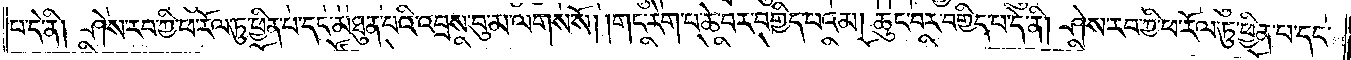པ་དེ་ནི། ཤེས་རབ་ཀྱི་ཕ་རོལ་ཏུ་ཕྱིན་པ་དང་མཐུན་པའི་འབྲས་བུ་མ་ལགས་སོ། །གང་རེག་པ་ཆེ་བར་བགྱིད་པའམ། ཆུང་བར་བགྱིད་པ་དེ་ནི། ཤེས་རབ་ཀྱི་ཕ་རོལ་ཏུ་ཕྱིན་པ་དང་
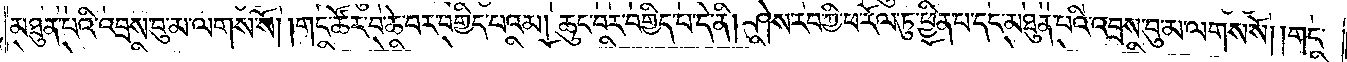མཐུན་པའི་འབྲས་བུ་མ་ལགས་སོ། །གང་ཚོར་བ་ཆེ་བར་བགྱིད་པའམ། ཆུང་བར་བགྱིད་པ་དེ་ནི། ཤེས་རབ་ཀྱི་ཕ་རོལ་ཏུ་ཕྱིན་པ་དང་མཐུན་པའི་འབྲས་བུ་མ་ལགས་སོ། །གང་
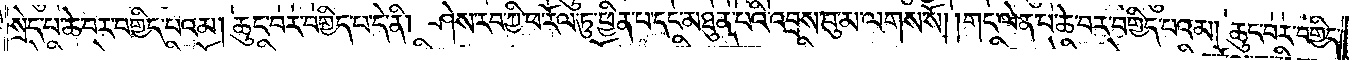སྲེད་པ་ཆེ་བར་བགྱིད་པའམ། ཆུང་བར་བགྱིད་པ་དེ་ནི། ཤེས་རབ་ཀྱི་ཕ་རོལ་ཏུ་ཕྱིན་པ་དང་མཐུན་པའི་འབྲས་བུ་མ་ལགས་སོ། །གང་ལེན་པ་ཆེ་བར་བགྱིད་པའམ། ཆུང་བར་བགྱིད་
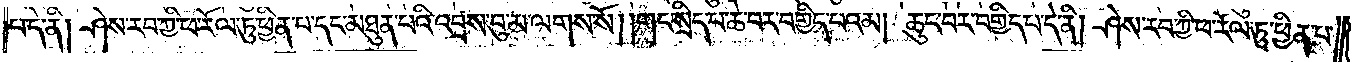པ་དེ་ནི། ཤེས་རབ་ཀྱི་ཕ་རོལ་ཏུ་ཕྱིན་པ་དང་མཐུན་པའི་འབྲས་བུ་མ་ལགས་སོ། །གང་སྲིད་པ་ཆེ་བར་བགྱིད་པའམ། ཆུང་བར་བགྱིད་པ་དེ་ནི། ཤེས་རབ་ཀྱི་ཕ་རོལ་ཏུ་ཕྱིན་པ་
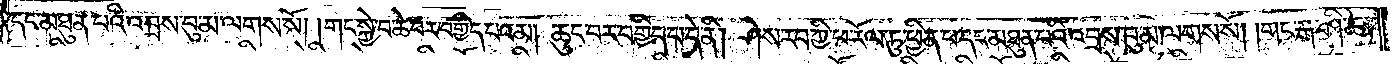དང་མཐུན་པའི་འབྲས་བུ་མ་ལགས་སོ། །གང་སྐྱེ་བ་ཆེ་བར་བགྱིད་པའམ། ཆུང་བར་བགྱིད་པ་དེ་ནི། ཤེས་རབ་ཀྱི་ཕ་རོལ་ཏུ་ཕྱིན་པ་དང་མཐུན་པའི་འབྲས་བུ་མ་ལགས་སོ། །གང་རྒ་ཤི་ཆེ་
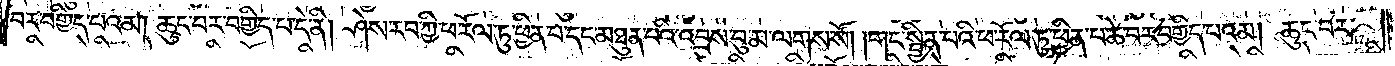བར་བགྱིད་པའམ། ཆུང་བར་བགྱིད་པ་དེ་ནི། ཤེས་རབ་ཀྱི་ཕ་རོལ་ཏུ་ཕྱིན་པ་དང་མཐུན་པའི་འབྲས་བུ་མ་ལགས་སོ། །གང་སྦྱིན་པའི་ཕ་རོལ་ཏུ་ཕྱིན་པ་ཆེ་བར་བགྱིད་པའམ། ཆུང་བར་
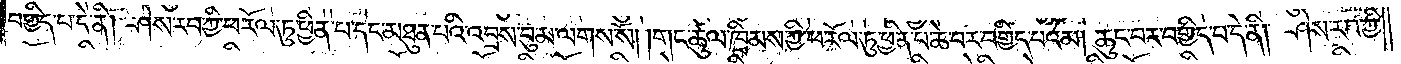བགྱིད་པ་དེ་ནི། ཤེས་རབ་ཀྱི་ཕ་རོལ་ཏུ་ཕྱིན་པ་དང་མཐུན་པའི་འབྲས་བུ་མ་ལགས་སོ། །གང་ཚུལ་ཁྲིམས་ཀྱི་ཕ་རོལ་ཏུ་ཕྱིན་པ་ཆེ་བར་བགྱིད་པའམ། ཆུང་བར་བགྱིད་པ་དེ་ནི། ཤེས་རབ་ཀྱི་
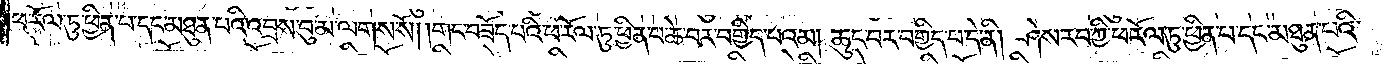ཕ་རོལ་ཏུ་ཕྱིན་པ་དང་མཐུན་པའི་འབྲས་བུ་མ་ལགས་སོ། །གང་བཟོད་པའི་ཕ་རོལ་ཏུ་ཕྱིན་པ་ཆེ་བར་བགྱིད་པའམ། ཆུང་བར་བགྱིད་པ་དེ་ནི། ཤེས་རབ་ཀྱི་ཕ་རོལ་ཏུ་ཕྱིན་པ་དང་མཐུན་པའི་
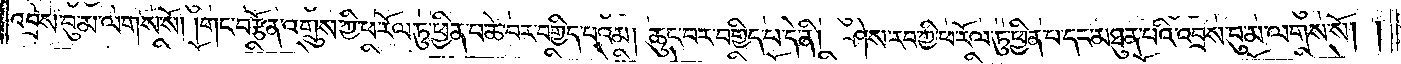འབྲས་བུ་མ་ལགས་སོ། །གང་བརྩོན་འགྲུས་ཀྱི་ཕ་རོལ་ཏུ་ཕྱིན་པ་ཆེ་བར་བགྱིད་པའམ། ཆུང་བར་བགྱིད་པ་དེ་ནི། ཤེས་རབ་ཀྱི་ཕ་རོལ་ཏུ་ཕྱིན་པ་དང་མཐུན་པའི་འབྲས་བུ་མ་ལགས་སོ། །
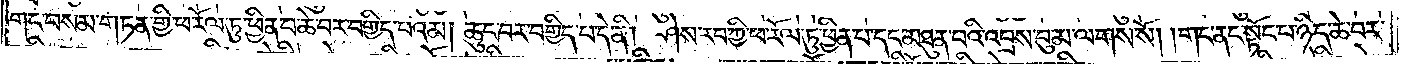གང་བསམ་གཏན་གྱི་ཕ་རོལ་ཏུ་ཕྱིན་པ་ཆེ་བར་བགྱིད་པའམ། ཆུང་བར་བགྱིད་པ་དེ་ནི། ཤེས་རབ་ཀྱི་ཕ་རོལ་ཏུ་ཕྱིན་པ་དང་མཐུན་པའི་འབྲས་བུ་མ་ལགས་སོ། །གང་ནང་སྟོང་པ་ཉིད་ཆེ་བར་
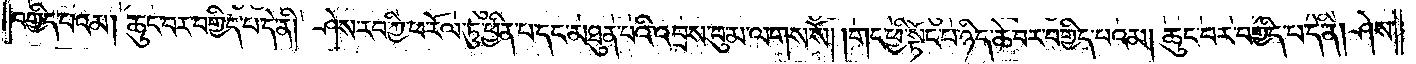བགྱིད་པའམ། ཆུང་བར་བགྱིད་པ་དེ་ནི། ཤེས་རབ་ཀྱི་ཕ་རོལ་ཏུ་ཕྱིན་པ་དང་མཐུན་པའི་འབྲས་བུ་མ་ལགས་སོ། །གང་ཕྱི་སྟོང་པ་ཉིད་ཆེ་བར་བགྱིད་པའམ། ཆུང་བར་བགྱིད་པ་དེ་ནི། ཤེས་
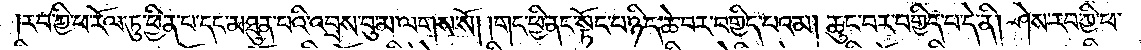རབ་ཀྱི་ཕ་རོལ་ཏུ་ཕྱིན་པ་དང་མཐུན་པའི་འབྲས་བུ་མ་ལགས་སོ། །གང་ཕྱི་ནང་སྟོང་པ་ཉིད་ཆེ་བར་བགྱིད་པའམ། ཆུང་བར་བགྱིད་པ་དེ་ནི། ཤེས་རབ་ཀྱི་ཕ་
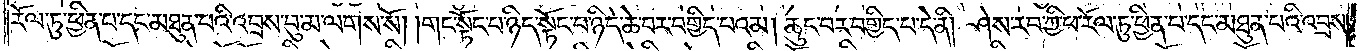རོལ་ཏུ་ཕྱིན་པ་དང་མཐུན་པའི་འབྲས་བུ་མ་ལགས་སོ། །གང་སྟོང་པ་ཉིད་སྟོང་པ་ཉིད་ཆེ་བར་བགྱིད་པའམ། ཆུང་བར་བགྱིད་པ་དེ་ནི། ཤེས་རབ་ཀྱི་ཕ་རོལ་ཏུ་ཕྱིན་པ་དང་མཐུན་པའི་འབྲས་
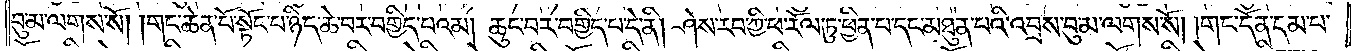བུ་མ་ལགས་སོ། །གང་ཆེན་པོ་སྟོང་པ་ཉིད་ཆེ་བར་བགྱིད་པའམ། ཆུང་བར་བགྱིད་པ་དེ་ནི། ཤེས་རབ་ཀྱི་ཕ་རོལ་ཏུ་ཕྱིན་པ་དང་མཐུན་པའི་འབྲས་བུ་མ་ལགས་སོ། །གང་དོན་དམ་པ་
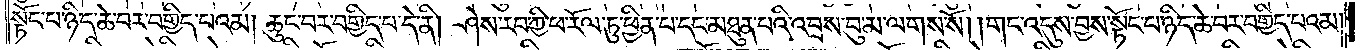སྟོང་པ་ཉིད་ཆེ་བར་བགྱིད་པའམ། ཆུང་བར་བགྱིད་པ་དེ་ནི། ཤེས་རབ་ཀྱི་ཕ་རོལ་ཏུ་ཕྱིན་པ་དང་མཐུན་པའི་འབྲས་བུ་མ་ལགས་སོ། །གང་འདུས་བྱས་སྟོང་པ་ཉིད་ཆེ་བར་བགྱིད་པའམ།
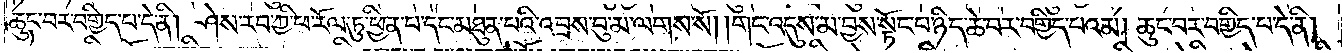ཆུང་བར་བགྱིད་པ་དེ་ནི། ཤེས་རབ་ཀྱི་ཕ་རོལ་ཏུ་ཕྱིན་པ་དང་མཐུན་པའི་འབྲས་བུ་མ་ལགས་སོ། །གང་འདུས་མ་བྱས་སྟོང་པ་ཉིད་ཆེ་བར་བགྱིད་པའམ། ཆུང་བར་བགྱིད་པ་དེ་ནི།
